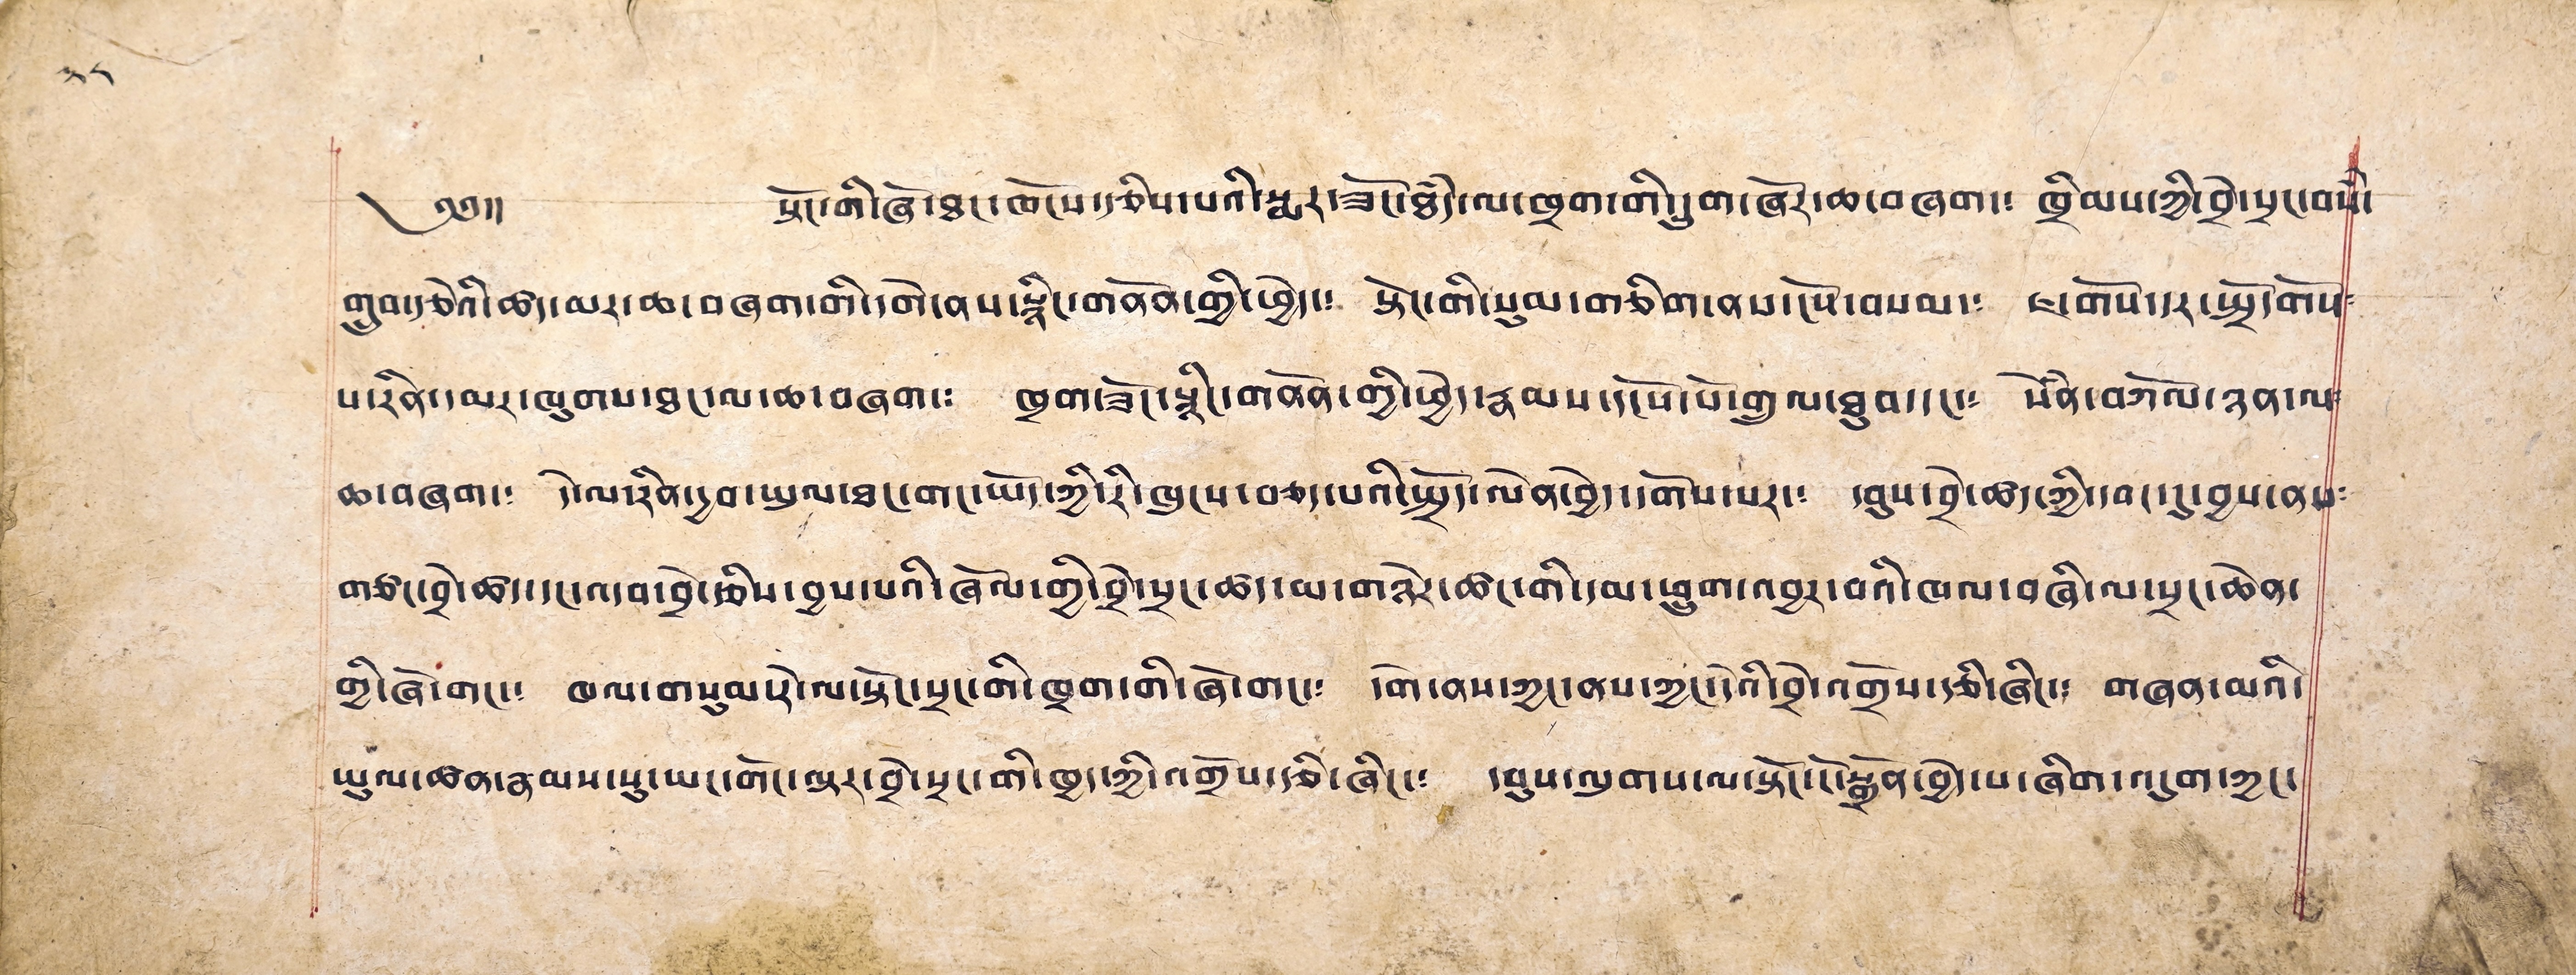༄༅།། སྟོང་གི་ཞོ་ཐང་ཁོངས་རྩིས་པའི་སྨར་ཟོང་ཐཾད་ལ་ཁྲག་གི་དྲུག་ཞོར་ཆ་བཞག་༴ ཁྲིམས་ཀྱི་བྲེ་སྲང་བསཾ་
གྲུབ་རྩེའི་ཚད་མར་ཆ་བཞག་གི་དགེ་ནས་སྙིང་གནོན་གྱི་ཕྱེད་༴ སྟོང་གི་སུམ་གཅིག་ནས་ངོས་བསམ་༴ ཇ་གོས་དར་སྤྲོད་དགོས༴
པ་རིན་དམར་ཁུགས་ཐང་ལ་ཆ་བཞག་༴ ཁྲག་ཟོང་སྙིང་གནོན་གྱི་ཕྱེད་རྣམས་དངོས་པོ་གྲུལ་ཐུབ་དང་༴ སེཾན་བཀོལ་ཉན་ལ༴
ཆ་བཞག་༴ དེ་ལ་རིན་དྱབ་ཡུལ་ཐང་གང་ཡོད་ཀྱི་རི་ཁུངས་བཅད་པའི་སྤྲོད་ལེན་བྱེད་དགོས་པར་༴ དབུས་བྲེ་ཚད་ཀྱི་དབང་དུ་བྱས་ནས༴
གཙང་བྲེ་ཚད་དང་འདབ་བྱེ་རྩིས་བྱས་པའི་ཞོལ་གྱི་བྲེ་སྲང་ཚད་མ་གཉེར་ཚང་གི་དམ་ཕྲུག་འབྱར་བའི་ཁལ་བཞི་ལ་སྲང་ཆེན་
གྱི་ཞོ་གང་༴ ཁལ་གསུམ་རེ་ལ་སྟོང་སྲང་གི་ཁྲག་གི་ཞོ་གང་༴ དགེ་ནས་ཀྱང་ནས་ཀྱང་དེའི་བྲེ་འགྲོས་རྩི་ཞིང་༴ གཞན་མའི་
ཡུལ་ཚན་རྣམས་སུ་ཡང་གོང་ལྟར་བྲེ་སྲང་གི་ཁྱད་ཀྱི་འགྲོས་རྩི་ཞིང་༴ དབུས་ལུགས་ལ་སྟོང་ངོ་སྒྲོན་བྱེད་པ་ཞིག་འདུག་ཀྱང་
